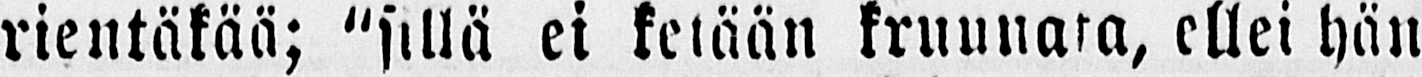rientäkää; “yllä ei ketään kruunata, ellei hän
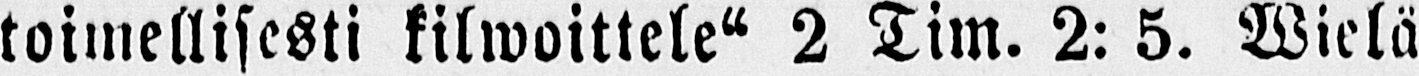toimellisesti kilwoittele“ 2 Tim. 2: 5. Wielä
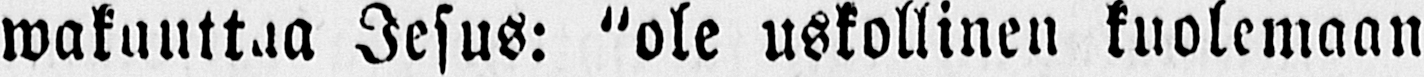wakuuttaa Jesus: “ole uskollinen kuolemaan
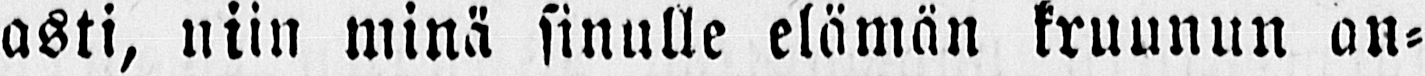asti, niin minä sinulle elämän kruunun an-
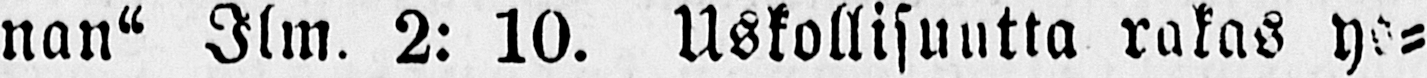nan“ Ilm. 2: 10. Uskollisuutta rakas ys-
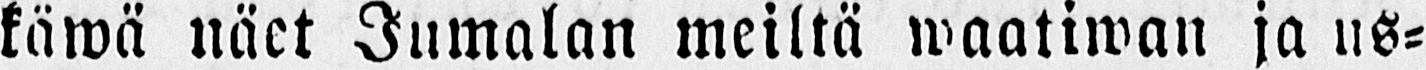käwä näet Jumalan meiltä waatiwan ja us-
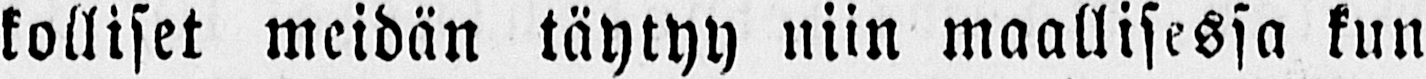kolliset meidän täytyy niin maallisessa kun
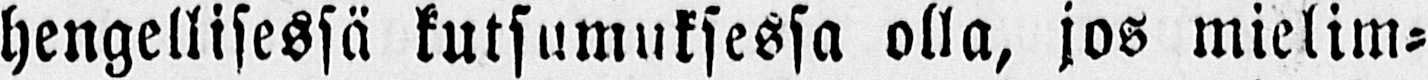hengellisessä kutsumuksessa olla, jos mielim-
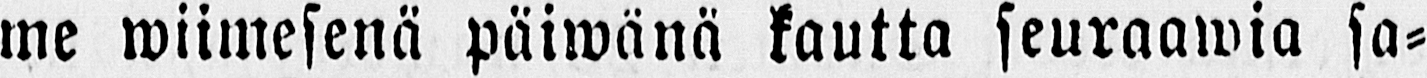me wiimesenä päiwänä kautta seuraawia sa-
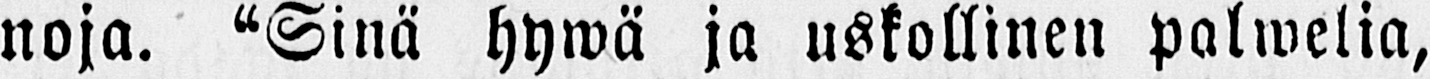noja. “Sinä hywä ja uskollinen palwelia,
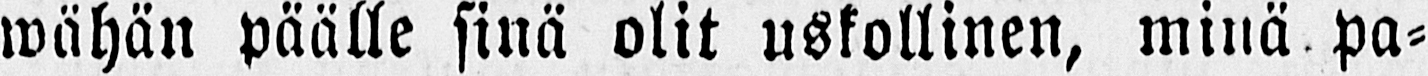wähän päälle sinä olit uskollinen, millä pa-
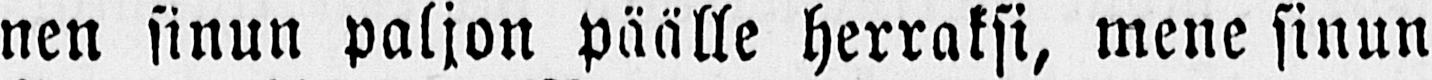nen sinun paljon päälle herraksi, mene sinun
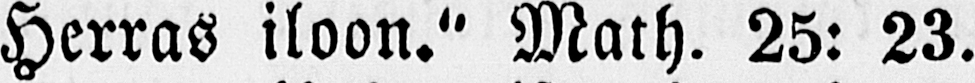Herras iloon.“ Math. 25: 23.
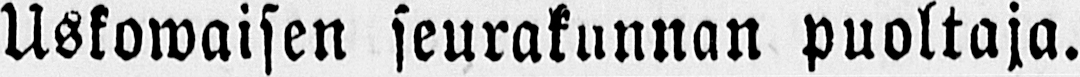Uskowaisen seurakunnan puoltaja.
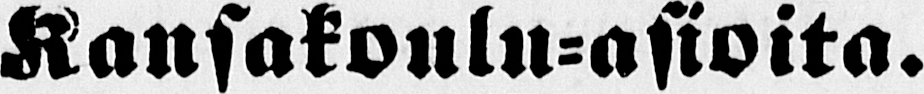Kansakoulu-asioita.
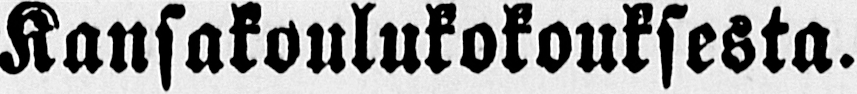Kansakoulukokouksesta.
